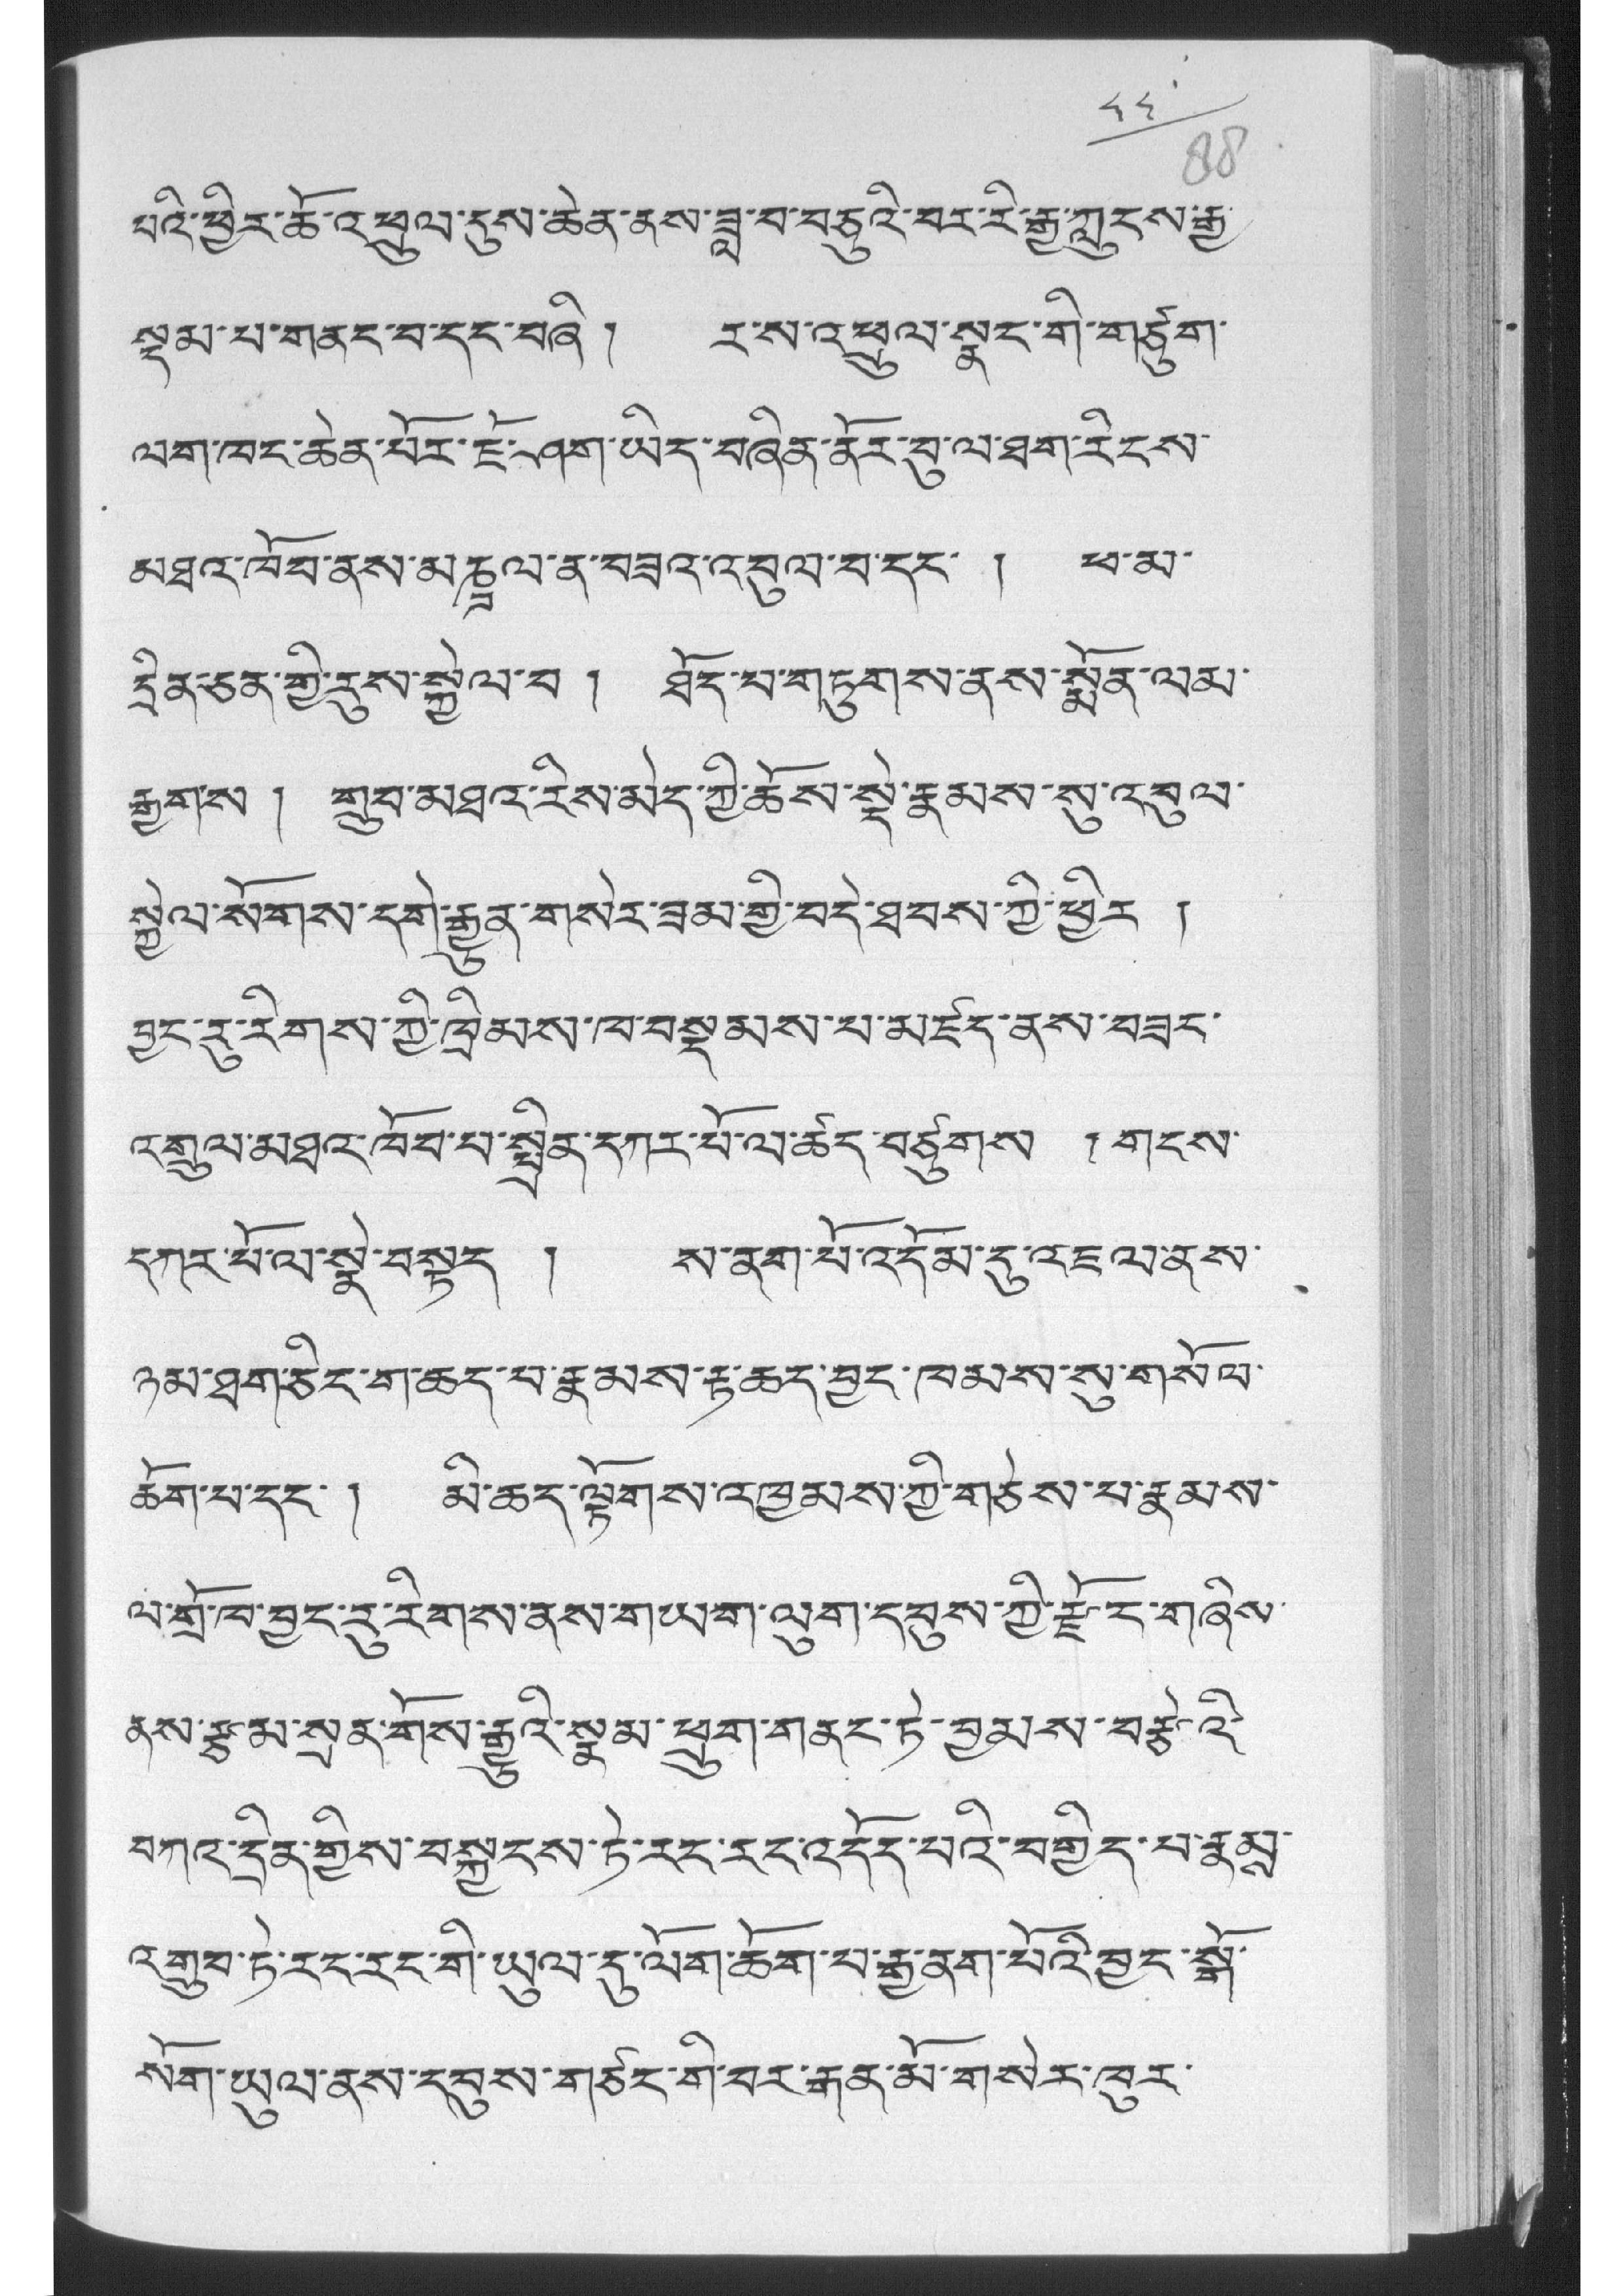༨༨
པའི་ཕྱིར་ཆོ་འཕྲུལ་དུས་ཆེན་ནས་ཟླ་བ་བཅུའི་བར་རི་རྒྱ་ཀླུངས་རྒྱ་
སྡམ་པ་གནད་བ་དང་བཞི ། ར་ས་འཕྲུལ་སྣང་གི་གཙུག་
ལག་ཁང་ཆེན་པོར་ཇོ་ཤག་ཡིད་བཞིན་ནོར་བུ་ལ་ཐག་རིངས་
མཐའ་ཁོབ་ནས་མཎྜལ་ན་བཟའ་འབུལ་བ་དང་ ། ཕ་མ་
དྲིན་ཅན་གྱི་རུས་སྐྱེལ་བ ། ཐོད་བ་གཏུགས་ནས་སྨོན་ལམ་
རྒྱག་ས ། གྲུབ་མཐའ་རིས་མེད་ཀྱི་ཆོས་སྡེ་རྣམས་སུ་འབུལ་
སྐྱེལ་སོགས་དགེ་རྒྱུན་གསེར་ཟམ་གྱི་བདེ་ཐབས་ཀྱི་ཕྱིར །
བྱང་རུ་རིགས་ཀྱི་ཁྲིམས་ཁ་བསྡམས་པ་མཛད་ནས་བཟང་
འགྲུལ་མཐའ་ཁོབ་པ་སྤྲིན་དཀར་པོ་ལ་ཚད་བཙུགས ། གངས་
དཀར་པོ་ལ་སྣེ་བསྟད ། ས་ནག་པོ་འདོམ་དུ་འཇལ་ནས་
ཉམ་ཐག་ཅིང་ག་ཆད་པ་རྣམས་རྟ་ཆད་བྱང་ཁམས་སུ་གསོལ་
ཆོག་པ་དང་། མི་ཆད་ལྟོགས་འཁྱམས་ཀྱི་གཅེས་པ་རྣམས་
ལ་གྲོ་ཁ་བྱང་རུ་རིགས་ནས་གཡག་ལུག་དབུས་ཀྱི་རྫོང་གཞིས་
ནས་རྩམ་སྲན་གོས་རྒྱུའི་སྣམ་ཕྲུག་གནང་ཏེ་བྱམས་བརྩེའི་
བཀའ་དྲིན་གྱིས་བསྐྱངས་ཏེ་རང་རང་འདོད་པའི་བགྱིད་པ་རྣམས་
འགྲུབ་ཏེ་རང་རང་གི་ཡུལ་དུ་ལོག་ཆོག་པ་རྒྱ་ནག་པོའི་བྱང་སྒོ་
སོག་ཡུལ་ནས་དབུས་གཙང་གི་བར་རྒན་མོ་གསེར་ལུར་
